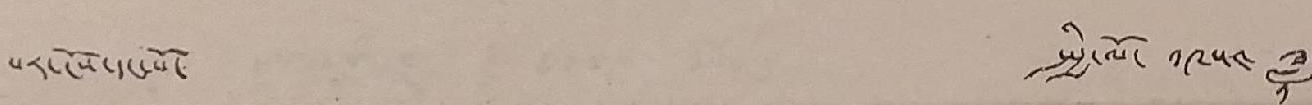པར་ངོས་དང་པོ སྤྱི་ལོ་ ༡༩༥༤ ཟླ་
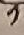༡
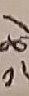ཚེས་
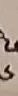༡༦
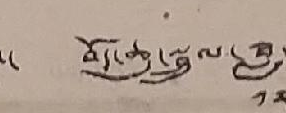བོད་ཆུ་སྦྲུལ་ཟླ་
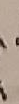༡༢
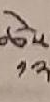ཚེས་
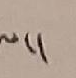ལ་།
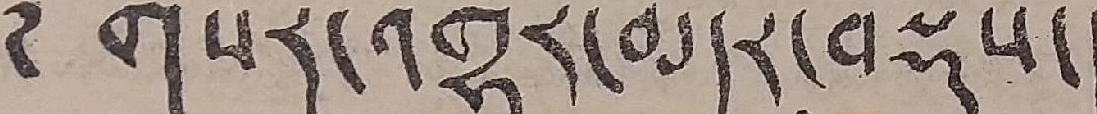༄ གསར་འགྱུར་མདོར་བསྡུས་།
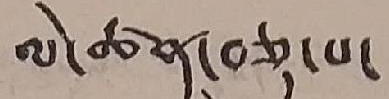ལེ་ཚན་བཅུ་པ་
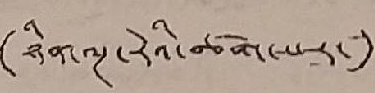(ཉིན་ལྔ་རེའི་ཚག་པར་)
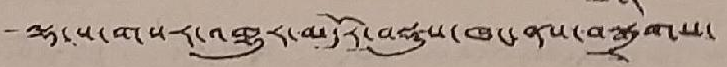ལྷ་ས་གསར་འགྱུར་མདོར་བསྡུས་ཁང་ནས་བསྒྲིགས་
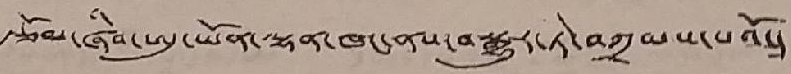རྩོམ་ཞིབ་ཨུ་ཡོན་ལྷན་ཁང་ནས་བསྒྱུར་ཏེ་འཀྲམས་པའོ་།
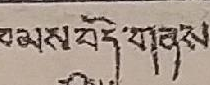ཁམས་བོད་གནས་
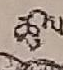ཚུལ་
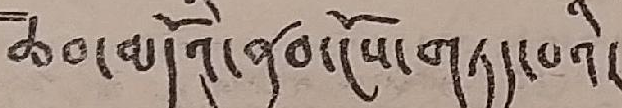ཆབ་མདོའི་ནུབ་ངོས་གཏད་པའི་
